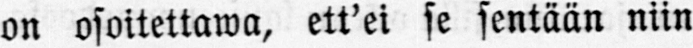on osoitettawa, ett'ei se sentään niin
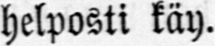helposti käy.
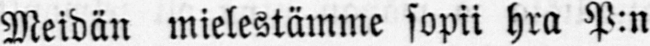Meidän mielestämme sopii hra P:n
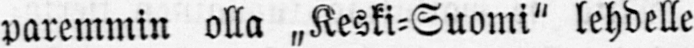paremmin olla „Keski-Suomi" lehdelle
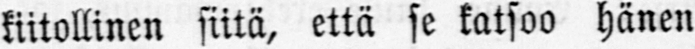kiitollinen siitä, että se katsoo hänen
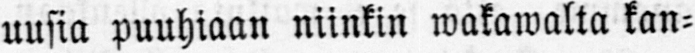uusia puuhiaan niinkin wakawalta kan-
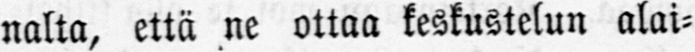nalta, että ne ottaa keskustelun alai-
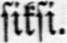siksi.
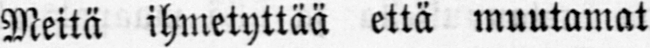Meitä ihmetyttää että muutamat
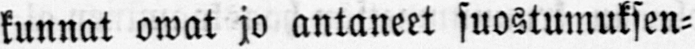kunnat owat jo antaneet suostumuksen-
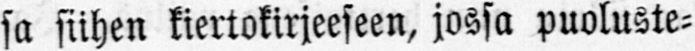sa siihen kiertokirjeeseen, jossa puoluste-
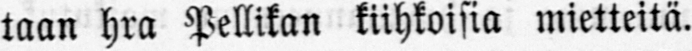taan hra Pellikan kiihkoisia mietteitä.
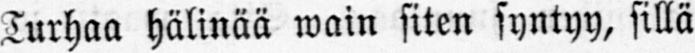Turhaa hälinää wain siten syntyy, sillä
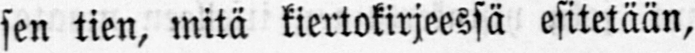sen tien, mitä kiertokirjeessä esitetään,
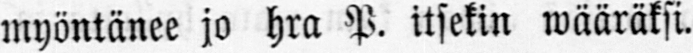myöntänee jo hra P. itsekin wääräksi.
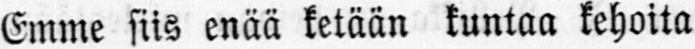Emme siis enää ketään kuntaa kehoita
